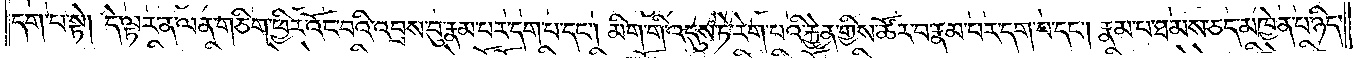དག་པ་སྟེ། དེ་ལྟར་ན་ལན་གཅིག་ཕྱིར་འོང་བའི་འབྲས་བུ་རྣམ་པར་དག་པ་དང༌། མིག་གི་འདུས་ཏེ་རེག་པའི་རྐྱེན་གྱིས་ཚོར་བ་རྣམ་པར་དག་པ་དང༌། རྣམ་པ་ཐམས་ཅད་མཁྱེན་པ་ཉིད་
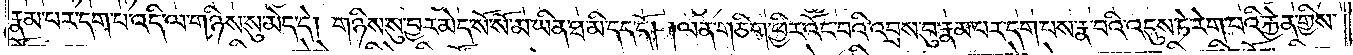རྣམ་པར་དག་པ་འདི་ལ་གཉིས་སུ་མེད་དེ། གཉིས་སུ་བྱར་མེད་སོ་སོ་མ་ཡིན་ཐ་མི་དད་དོ། །ལན་གཅིག་ཕྱིར་འོང་བའི་འབྲས་བུ་རྣམ་པར་དག་པས་རྣ་བའི་འདུས་ཏེ་རེག་པའི་རྐྱེན་གྱིས་
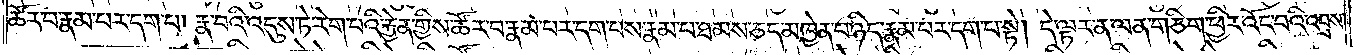ཚོར་བ་རྣམ་པར་དག་པ། རྣ་བའི་འདུས་ཏེ་རེག་པའི་རྐྱེན་གྱིས་ཚོར་བ་རྣམ་པར་དག་པས་རྣམ་པ་ཐམས་ཅད་མཁྱེན་པ་ཉིད་རྣམ་པར་དག་པ་སྟེ། དེ་ལྟར་ན་ལན་གཅིག་ཕྱིར་འོང་བའི་འབྲས་
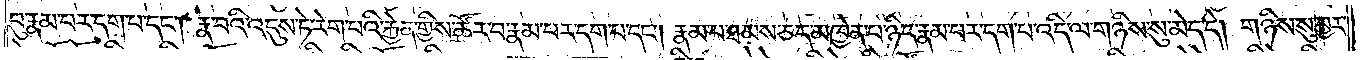བུ་རྣམ་པར་དག་པ་དང༌། རྣ་བའི་འདུས་ཏེ་རེག་པའི་རྐྱེན་གྱིས་ཚོར་བ་རྣམ་པར་དག་པ་དང༌། རྣམ་པ་ཐམས་ཅད་མཁྱེན་པ་ཉིད་རྣམ་པར་དག་པ་འདི་ལ་གཉིས་སུ་མེད་དེ། གཉིས་སུ་བྱར་
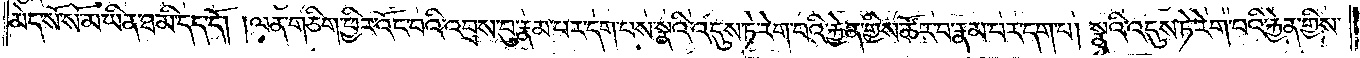མེད་སོ་སོ་མ་ཡིན་ཐ་མི་དད་དོ། །ལན་གཅིག་ཕྱིར་འོང་བའི་འབྲས་བུ་རྣམ་པར་དག་པས་སྣའི་འདུས་ཏེ་རེག་པའི་རྐྱེན་གྱིས་ཚོར་བ་རྣམ་པར་དག་པ། སྣའི་འདུས་ཏེ་རེག་པའི་རྐྱེན་གྱིས་
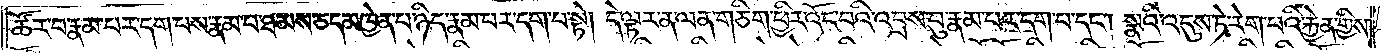ཚོར་བ་རྣམ་པར་དག་པས་རྣམ་པ་ཐམས་ཅད་མཁྱེན་པ་ཉིད་རྣམ་པར་དག་པ་སྟེ། དེ་ལྟར་ན་ལན་གཅིག་ཕྱིར་འོང་བའི་འབྲས་བུ་རྣམ་པར་དག་པ་དང༌། སྣའི་འདུས་ཏེ་རེག་པའི་རྐྱེན་གྱིས་
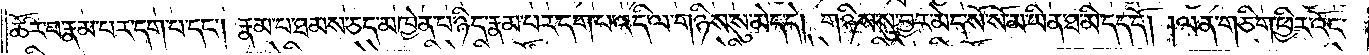ཚོར་བ་རྣམ་པར་དག་པ་དང༌། རྣམ་པ་ཐམས་ཅད་མཁྱེན་པ་ཉིད་རྣམ་པར་དག་པ་འདི་ལ་གཉིས་སུ་མེད་དེ། གཉིས་སུ་བྱར་མེད་སོ་སོ་མ་ཡིན་ཐ་མི་དད་དོ། །ལན་གཅིག་ཕྱིར་འོང་
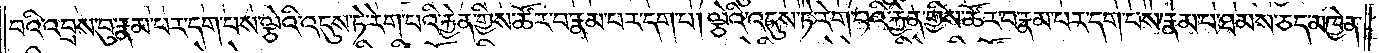བའི་འབྲས་བུ་རྣམ་པར་དག་པས་ལྕེའི་འདུས་ཏེ་རེག་པའི་རྐྱེན་གྱིས་ཚོར་བ་རྣམ་པར་དག་པ། ལྕེའི་འདུས་ཏེ་རེག་པའི་རྐྱེན་གྱིས་ཚོར་བ་རྣམ་པར་དག་པས་རྣམ་པ་ཐམས་ཅད་མཁྱེན་
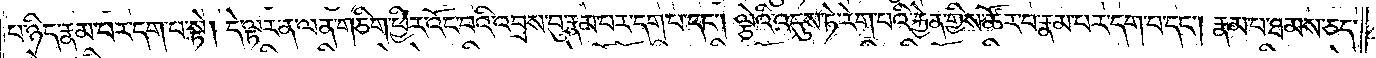པ་ཉིད་རྣམ་པར་དག་པ་སྟེ། དེ་ལྟར་ན་ལན་གཅིག་ཕྱིར་འོང་བའི་འབྲས་བུ་རྣམ་པར་དག་པ་དང༌། ལྕེའི་འདུས་ཏེ་རེག་པའི་རྐྱེན་གྱིས་ཚོར་བ་རྣམ་པར་དག་པ་དང༌། རྣམ་པ་ཐམས་ཅད་
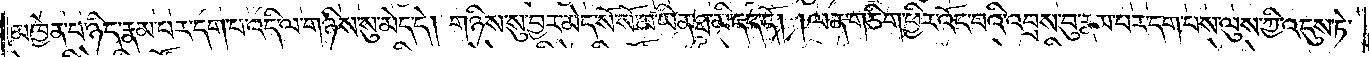མཁྱེན་པ་ཉིད་རྣམ་པར་དག་པ་འདི་ལ་གཉིས་སུ་མེད་དེ། གཉིས་སུ་བྱར་མེད་སོ་སོ་མ་ཡིན་པ་ཐ་མི་དད་དོ། །ལན་གཅིག་ཕྱིར་འོང་བའི་འབྲས་བུ་རྣམ་པར་དག་པས་ལུས་ཀྱི་འདུས་ཏེ་
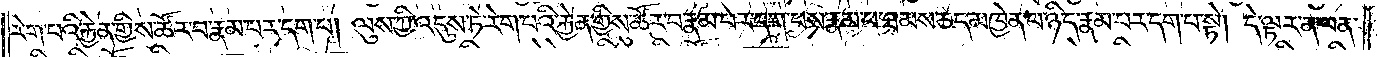རེག་པའི་རྐྱེན་གྱིས་ཚོར་བ་རྣམ་པར་དག་པ། ལུས་ཀྱི་འདུས་ཏེ་རེག་པའི་རྐྱེན་གྱིས་ཚོར་བ་རྣམ་པར་དག་པས་རྣམ་པ་ཐམས་ཅད་མཁྱེན་པ་ཉིད་རྣམ་པར་དག་པ་སྟེ། དེ་ལྟར་ན་ལན་
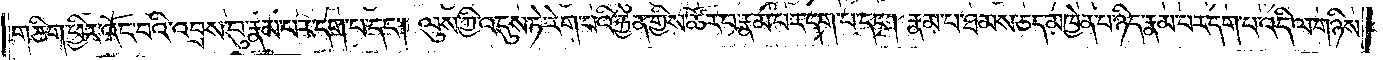གཅིག་ཕྱིར་འོང་བའི་འབྲས་བུ་རྣམ་པར་དག་པ་དང༌། ལུས་ཀྱི་འདུས་ཏེ་རེག་པའི་རྐྱེན་གྱིས་ཚོར་བ་རྣམ་པར་དག་པ་དང༌། རྣམ་པ་ཐམས་ཅད་མཁྱེན་པ་ཉིད་རྣམ་པར་དག་པ་འདི་ལ་གཉིས་
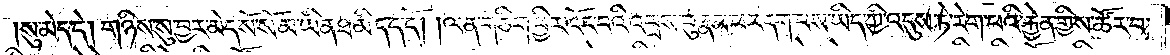སུ་མེད་དེ། གཉིས་སུ་བྱར་མེད་སོ་སོ་མ་ཡིན་ཐ་མི་དད་དོ། །ལན་གཅིག་ཕྱིར་འོང་བའི་འབྲས་བུ་རྣམ་པར་དག་པས་ཡིད་ཀྱི་འདུས་ཏེ་རེག་པའི་རྐྱེན་གྱིས་ཚོར་བ་
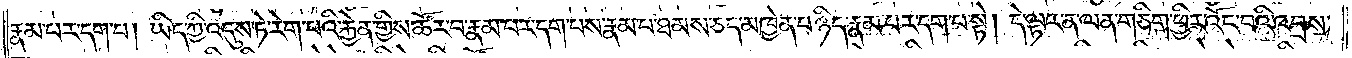རྣམ་པར་དག་པ། ཡིད་ཀྱི་འདུས་ཏེ་རེག་པའི་རྐྱེན་གྱིས་ཚོར་བ་རྣམ་པར་དག་པས་རྣམ་པ་ཐམས་ཅད་མཁྱེན་པ་ཉིད་རྣམ་པར་དག་པ་སྟེ། དེ་ལྟར་ན་ལན་གཅིག་ཕྱིར་འོང་བའི་འབྲས་
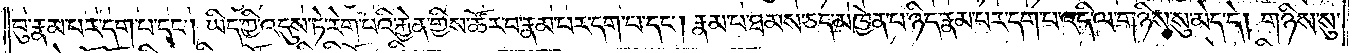བུ་རྣམ་པར་དག་པ་དང༌། ཡིད་ཀྱི་འདུས་ཏེ་རེག་པའི་རྐྱེན་གྱིས་ཚོར་བ་རྣམ་པར་དག་པ་དང༌། རྣམ་པ་ཐམས་ཅད་མཁྱེན་པ་ཉིད་རྣམ་པར་དག་པ་འདི་ལ་གཉིས་སུ་མེད་དེ། གཉིས་སུ་
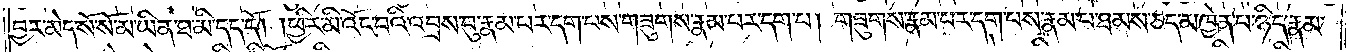བྱར་མེད་སོ་སོ་མ་ཡིན་ཐ་མི་དད་དོ། །ཕྱིར་མི་འོང་བའི་འབྲས་བུ་རྣམ་པར་དག་པས་གཟུགས་རྣམ་པར་དག་པ། གཟུགས་རྣམ་པར་དག་པས་རྣམ་པ་ཐམས་ཅད་མཁྱེན་པ་ཉིད་རྣམ་
